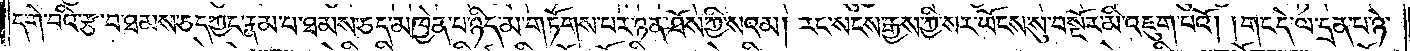དགེ་བའི་རྩ་བ་ཐམས་ཅད་ཀྱང་རྣམ་པ་ཐམས་ཅད་མཁྱེན་པ་ཉིད་མ་གཏོགས་པར་ཉན་ཐོས་ཀྱི་སའམ། རང་སངས་རྒྱས་ཀྱི་སར་ཡོངས་སུ་བསྔོར་མི་འཇུག་པའོ། །གང་དེ་ལ་དྲན་པ་ཉེ་
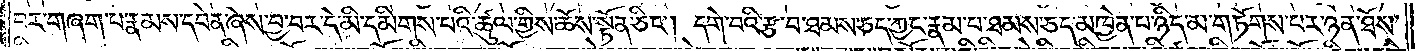བར་གཞག་པ་རྣམས་དབེན་ཞེས་བྱ་བར་དེ་མི་དམིགས་པའི་ཚུལ་གྱིས་ཆོས་སྟོན་ཅིང༌། དགེ་བའི་རྩ་བ་ཐམས་ཅད་ཀྱང་རྣམ་པ་ཐམས་ཅད་མཁྱེན་པ་ཉིད་མ་གཏོགས་པར་ཉན་ཐོས་
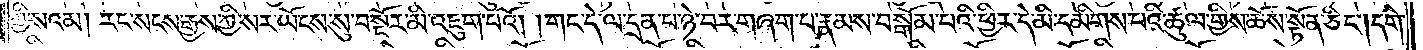ཀྱི་སའམ། རང་སངས་རྒྱས་ཀྱི་སར་ཡོངས་སུ་བསྔོར་མི་འཇུག་པའོ། །གང་དེ་ལ་དྲན་པ་ཉེ་བར་གཞག་པ་རྣམས་བསྒོམ་པའི་ཕྱིར་དེ་མི་དམིགས་པའི་ཚུལ་གྱིས་ཆོས་སྟོན་ཅིང༌། དགེ་
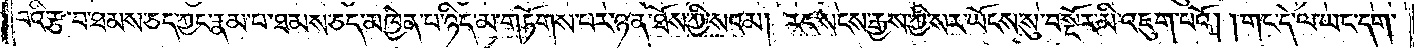བའི་རྩ་བ་ཐམས་ཅད་ཀྱང་རྣམ་པ་ཐམས་ཅད་མཁྱེན་པ་ཉིད་མ་གཏོགས་པར་ཉན་ཐོས་ཀྱི་སའམ། རང་སངས་རྒྱས་ཀྱི་སར་ཡོངས་སུ་བསྔོར་མི་འཇུག་པའོ། །གང་དེ་ལ་ཡང་དག་
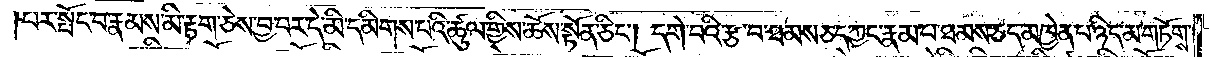པར་སྤོང་བ་རྣམས་མི་རྟག་ཅེས་བྱ་བར་དེ་མི་དམིགས་པའི་ཚུལ་གྱིས་ཆོས་སྟོན་ཅིང༌། དགེ་བའི་རྩ་བ་ཐམས་ཅད་ཀྱང་རྣམ་པ་ཐམས་ཅད་མཁྱེན་པ་ཉིད་མ་གཏོགས་
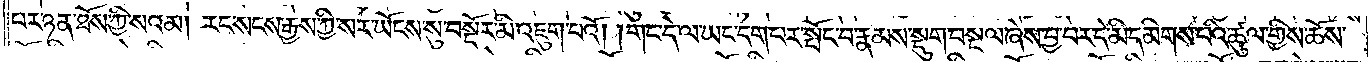པར་ཉན་ཐོས་ཀྱི་སའམ། རང་སངས་རྒྱས་ཀྱི་སར་ཡོངས་སུ་བསྔོར་མི་འཇུག་པའོ། །གང་དེ་ལ་ཡང་དག་པར་སྤོང་བ་རྣམས་སྡུག་བསྔལ་ཞེས་བྱ་བར་དེ་མི་དམིགས་པའི་ཚུལ་གྱིས་ཆོས་
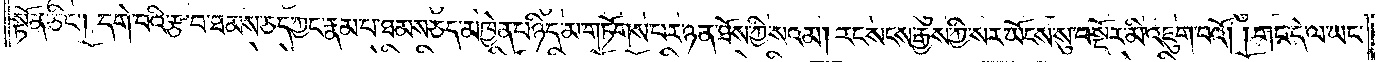སྟོན་ཅིང༌། དགེ་བའི་རྩ་བ་ཐམས་ཅད་ཀྱང་རྣམ་པ་ཐམས་ཅད་མཁྱེན་པ་ཉིད་མ་གཏོགས་པར་ཉན་ཐོས་ཀྱི་སའམ། རང་སངས་རྒྱས་ཀྱི་སར་ཡོངས་སུ་བསྔོར་མི་འཇུག་པའོ། །གང་དེ་ལ་ཡང་
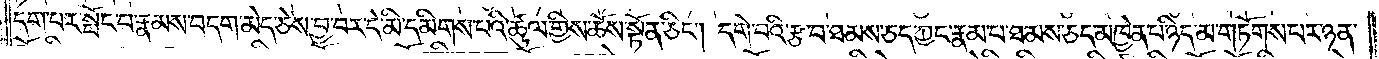དག་པར་སྤོང་བ་རྣམས་བདག་མེད་ཅེས་བྱ་བར་དེ་མི་དམིགས་པའི་ཚུལ་གྱིས་ཆོས་སྟོན་ཅིང༌། དགེ་བའི་རྩ་བ་ཐམས་ཅད་ཀྱང་རྣམ་པ་ཐམས་ཅད་མཁྱེན་པ་ཉིད་མ་གཏོགས་པར་ཉན་
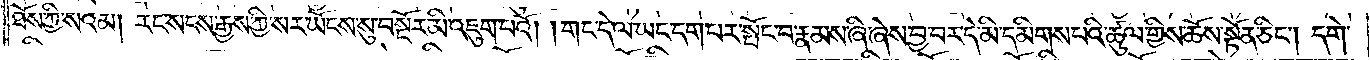ཐོས་ཀྱི་སའམ། རང་སངས་རྒྱས་ཀྱི་སར་ཡོངས་སུ་བསྔོར་མི་འཇུག་པའོ། །གང་དེ་ལ་ཡང་དག་པར་སྤོང་བ་རྣམས་ཞི་ཞེས་བྱ་བར་དེ་མི་དམིགས་པའི་ཚུལ་གྱིས་ཆོས་སྟོན་ཅིང༌། དགེ་
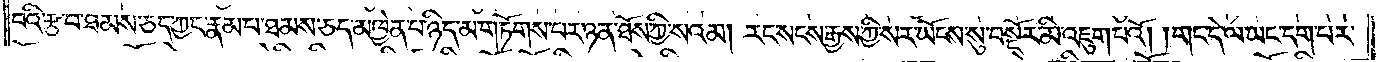བའི་རྩ་བ་ཐམས་ཅད་ཀྱང་རྣམ་པ་ཐམས་ཅད་མཁྱེན་པ་ཉིད་མ་གཏོགས་པར་ཉན་ཐོས་ཀྱི་སའམ། རང་སངས་རྒྱས་ཀྱི་སར་ཡོངས་སུ་བསྔོར་མི་འཇུག་པའོ། །གང་དེ་ལ་ཡང་དག་པར་
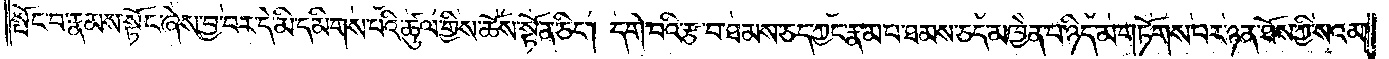སྤོང་བ་རྣམས་སྟོང་ཞེས་བྱ་བར་དེ་མི་དམིགས་པའི་ཚུལ་གྱིས་ཆོས་སྟོན་ཅིང༌། དགེ་བའི་རྩ་བ་ཐམས་ཅད་ཀྱང་རྣམ་པ་ཐམས་ཅད་མཁྱེན་པ་ཉིད་མ་གཏོགས་པར་ཉན་ཐོས་ཀྱི་སའམ།
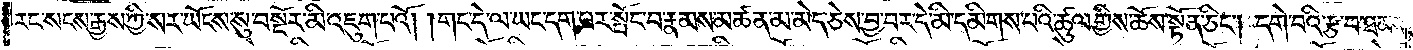རང་སངས་རྒྱས་ཀྱི་སར་ཡོངས་སུ་བསྔོར་མི་འཇུག་པའོ། །གང་དེ་ལ་ཡང་དག་པར་སྤོང་བ་རྣམས་མཚན་མ་མེད་ཅེས་བྱ་བར་དེ་མི་དམིགས་པའི་ཚུལ་གྱིས་ཆོས་སྟོན་ཅིང༌། དགེ་བའི་རྩ་བ་ཐམས་
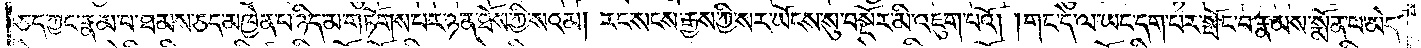ཅད་ཀྱང་རྣམ་པ་ཐམས་ཅད་མཁྱེན་པ་ཉིད་མ་གཏོགས་པར་ཉན་ཐོས་ཀྱི་སའམ། རང་སངས་རྒྱས་ཀྱི་སར་ཡོངས་སུ་བསྔོར་མི་འཇུག་པའོ། །གང་དེ་ལ་ཡང་དག་པར་སྤོང་བ་རྣམས་སྨོན་པ་མེད་
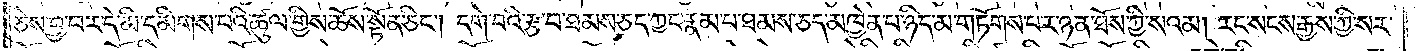ཅེས་བྱ་བར་དེ་མི་དམིགས་པའི་ཚུལ་གྱིས་ཆོས་སྟོན་ཅིང༌། དགེ་བའི་རྩ་བ་ཐམས་ཅད་ཀྱང་རྣམ་པ་ཐམས་ཅད་མཁྱེན་པ་ཉིད་མ་གཏོགས་པར་ཉན་ཐོས་ཀྱི་སའམ། རང་སངས་རྒྱས་ཀྱི་སར་
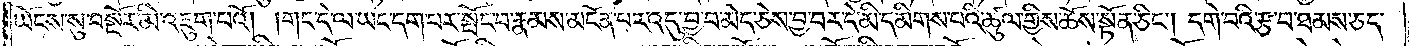ཡོངས་སུ་བསྔོར་མི་འཇུག་པའོ། །གང་དེ་ལ་ཡང་དག་པར་སྤོང་བ་རྣམས་མངོན་པར་འདུ་བྱ་བ་མེད་ཅེས་བྱ་བར་དེ་མི་དམིགས་པའི་ཚུལ་གྱིས་ཆོས་སྟོན་ཅིང༌། དགེ་བའི་རྩ་བ་ཐམས་ཅད་
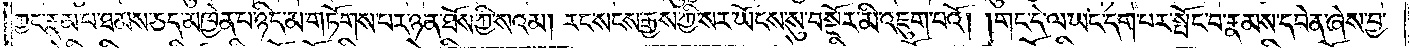ཀྱང་རྣམ་པ་ཐམས་ཅད་མཁྱེན་པ་ཉིད་མ་གཏོགས་པར་ཉན་ཐོས་ཀྱི་སའམ། རང་སངས་རྒྱས་ཀྱི་སར་ཡོངས་སུ་བསྔོར་མི་འཇུག་པའོ། །གང་དེ་ལ་ཡང་དག་པར་སྤོང་བ་རྣམས་དབེན་ཞེས་བྱ་
